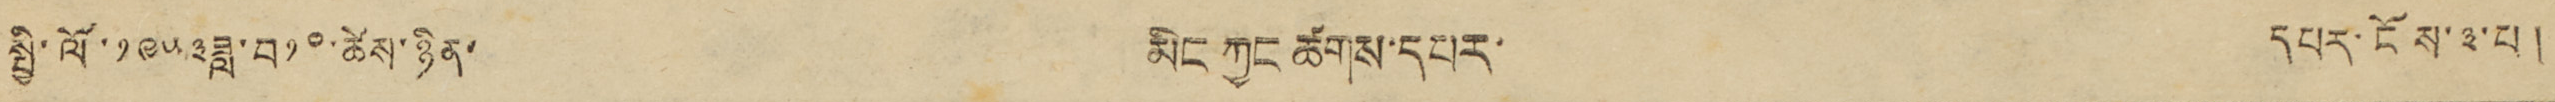སྤྱི་ལོ་༡༩༥༣ཟླ་བ༡༠་ཚེས་ཉིན་ མིང ཀྱང ཚགས་དཔར་ དཔར་ངོས་༣་པ །
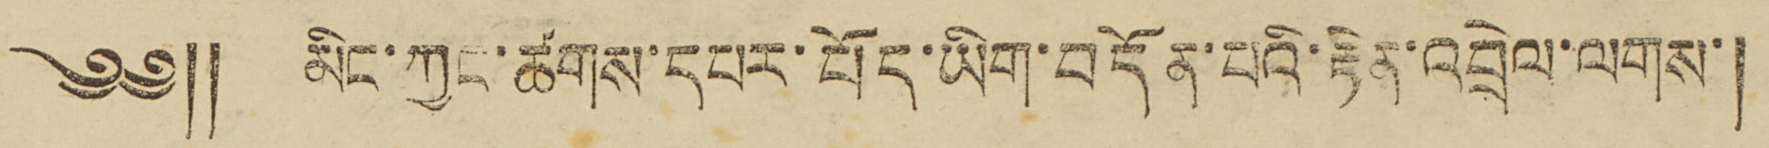༄༅༎ མིང་ཀྱང་ཚགས་དཔར་པོད་ཡིག་བདོན་པའི་རྟེན་འབྲེལ་ལགས་།
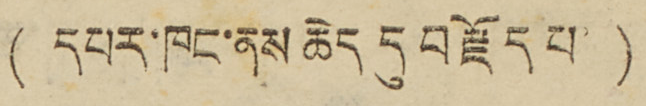(དཔར་ཁང་ནས ཆེད དུ བརྗོད པ )
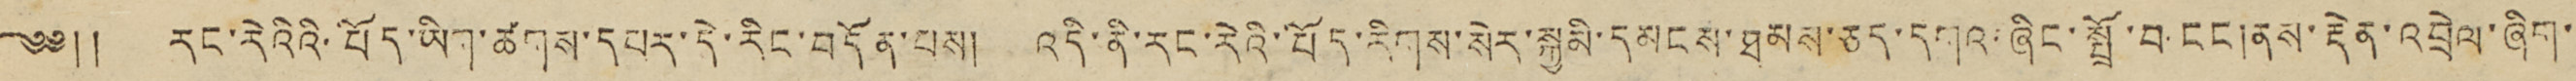༄༅༎ རང་རེའིའི་བོད་ཡིག་ཚགས་དཔར་དེ་རིང་བདོན་པས། འདི་ནི་རང་རེའི་བོད་རིགས་སེར་སྐྱ མི་དམངས་ཐམས་ཅད་དགའ་ཞིང་སྤྲོ་བ་ངང།ནས་རྡེན་འབྲེལ་ཞིག་
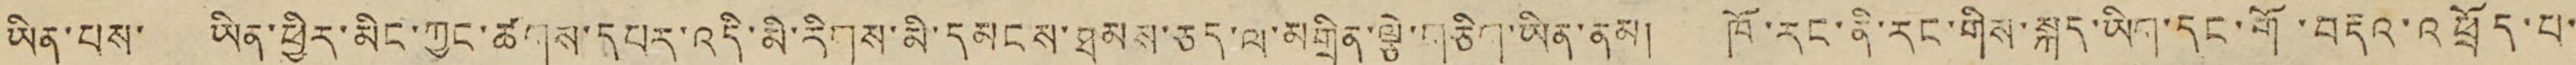ཡིན་པས་ ཡིན་ཕྱིར་མིང་ཀྱང་ཚགས་དཔར་འདི་མི་རིགས་མི་དམངས་ཐམས་ཅད་ལ་མགྲིན་ལྕེ་གཅིག་ཡིན་ནམ། ཁོ་རང་ནི་རང་གིས་སྐད་ཡིག་དང་གོ་བརྡའ་འཕྲོད་པ་
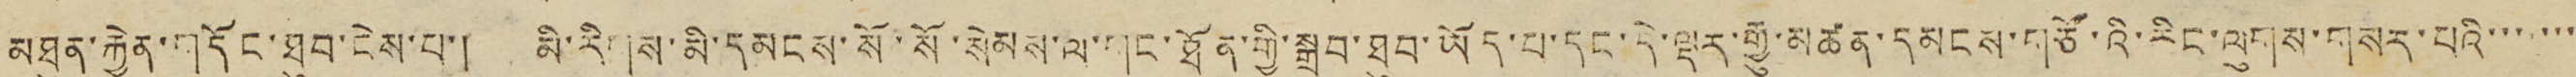མཐུན་རྐྱེན་གདོང་ཐུབ་ངེས་པ་། མི་རིགས་མི་དམངས་སོ་སོ་སེམས་ལ་གང་ཐོན་གྱི་སྒྲུབ་ཐུབ་ཡོད་པ་དང་དེ་ལྡར་རྒྱུ་མཚན་དམངས་གཙོ་འི་རིང་ལུགས་གསར་པའི་་་་་་་
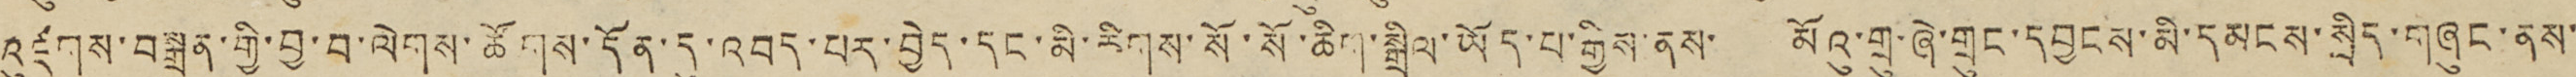འུཛགས་བསྒྲུན་གྱི་བྱ་བ་ལེགས་ཚོགས་དོན་དུ་འབད་པར་བྱེད་དང་མི་རིགས་སོ་སོ་ཆིག་སྒྲིལ་ཡོད་པ་གྱིས་ནས་ མོའུ་གྲུ་ཞེ་གྲུང་དབྱངས་མི་དམངས་སྲིད་གཞུང་ནས་
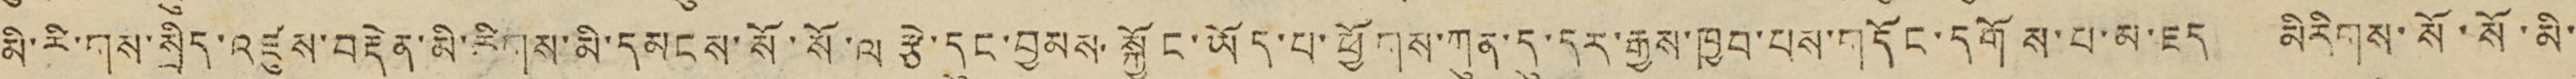མི་རི་གས་སྲིད་འཛུས་བརྟེན་མི་རིགས་མི་དམངས་སོ་སོ་ལ རྩེ་དུང་བྱམས་སྐྱོང་ཡོད་པ་ཕྱོགས་ཀུན་དུ་དར་རྒྱས་ཁྱབ་པས་གདོང་དགོས་པ་མ་ཇད། མིརིགས་སོ་སོ་མི་
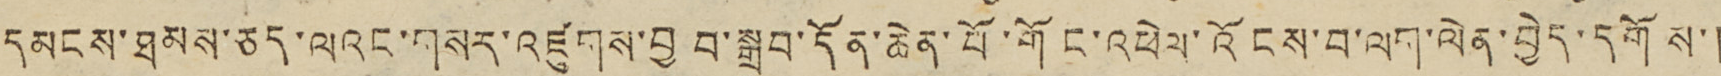དམངས་ཐམས་ཅད་ལའང་གསར་འཛུགས་བྱ བ་སྒྲུབ་དོན་ཆེན་པོ་གོང་འཕེལ་འོངས་བ་ལག་ལེན་བྱེད་དགོས་།
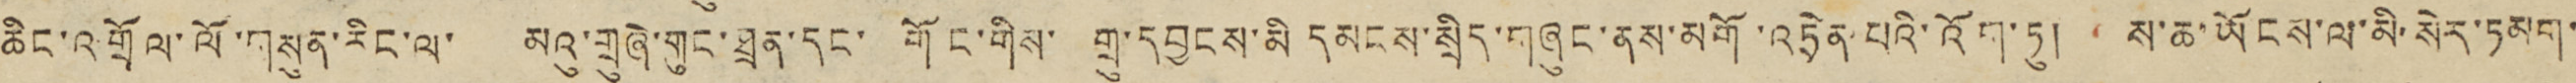ཆིང་འགྲོལ་ལོ་གསུན་རིང་ལ་ མའུ་གྲུཞེ་གུང་ཐྲན་དང་ གོང་གིས་ གྲུ་དབྱངས་མི དམངས་སྲིད་གཞུང་ནས་མགོ་འཏྲེན་པའི་འོག་ཏུ། ས་ཆ་ཡོངས་ལ་མི་སེར་ཏམག་
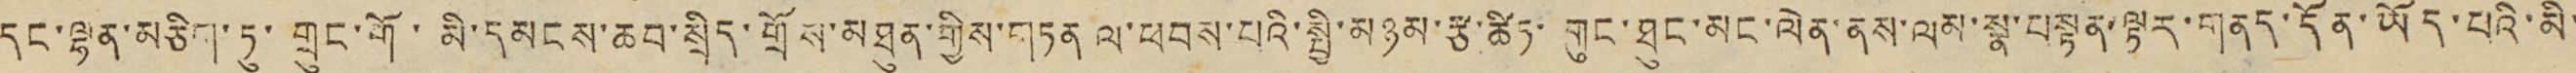དང་ལྷན་མཅིག་ཏུ་གྲུང་གོ་ མི་དམངས་ཆབ་སྲིད་གྲོས་མཐུན་གྱིས་གཏན ལ་ཕབས་པའི་སྤྱི་མཉམ་རྩ་ཚིཏ་གུང་ཐུང་མང་ལེན་ནས་ལམ་སྣ་བསྟན་ལྟར་གནད་དོན་ཡོད་པའི་མི་
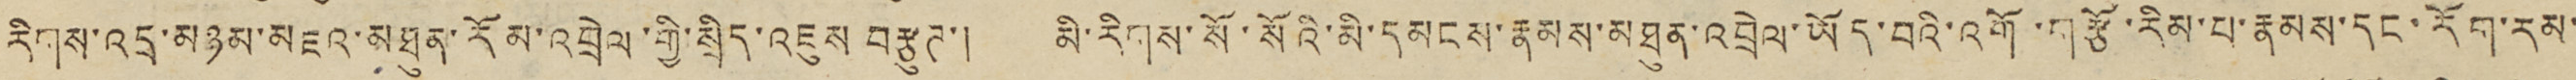རིགས་འདྲ་མཉམ་མཇའ་མཐུན་རོམ་འབྲེལ་གྱི་སྲིད་འཇུས བརྩུཊ་། མི་རིགས་སོ་སོའི་མི་དམངས་རྣམས་མཐུན་འབྲེལ་ཡོད་བའི་འགོ་གརྩོ་རིམ་པ་རྣམས་དང་རོག་རམ་
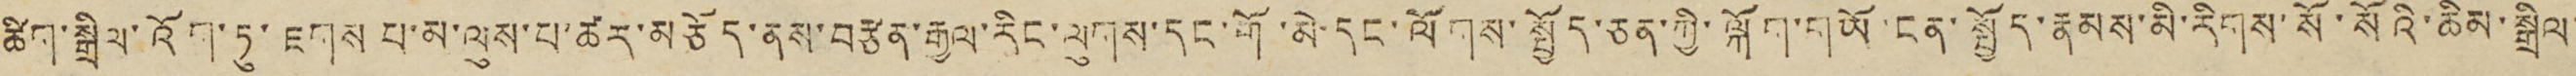ཚིག་སྒྲིལ་འོག་ཏུ་ཇགས པ་མ་ལུས་པ་ཚར་མཅོད་ནས་བརྩན་རྒྱལ་རིང་ལུགས་དང་གོ་མེ་དང་ལོགས་སྤྱོད་ཅན་ཀྱི་ལྐོག་གཡོ་ངན་སྤྱོད་རྣམས་མི་རིགས་སོ་སོའི་ཆིས་སྒྲིལ་
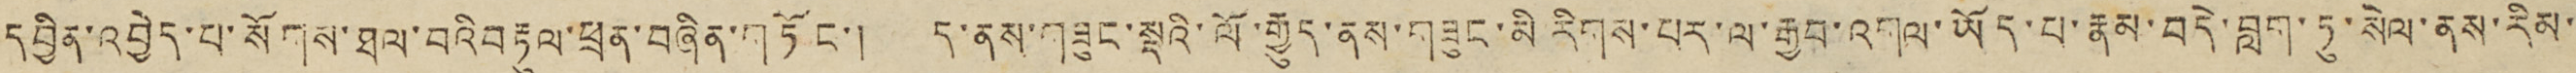དབྱིན་འབྱེད་པ་སོགས་ཐལ་བའིབརྟུལ་ཕྲན་བཞིན་གཏོང་། ད་ནས་གཟུང་སྡའི་ལོ་རྒྱུད་ནས་གཟུང་མི རིགས་པར་ལ་རྒྱབ་འགལ་ཡོད་པ་རྣམ་བདེ་བླག་ཏུ་སེལ་ནས་རིམ་
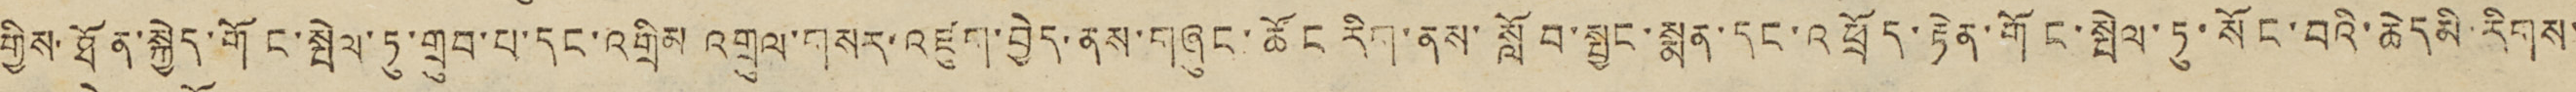གྱིས་ཐོན་སྐྱེད་གོང་སྤེལ་ཏུ་གྲུབ་པ་དང་འགྲིམ འགྲུལ་གསར་འཛུག་བྱེད་ནས་གཞུང་ཚོང རིག་ནས་སློབ་སྦྱང་སྨན་དང་འཕྲོད་རྟེན་གོང་སྤེལ་ཏུ་སོང་བའི་ཆེདམི་རིགས་
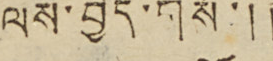ལས་བྱེད་གསོ་༎
